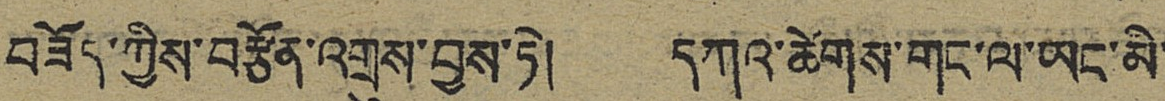བཟོད་ཀྱིས་བརྩོན་འགྲུས་བྱས་ཏེ། དཀའ་ཚེགས་གང་ལ་ཡང་མི་
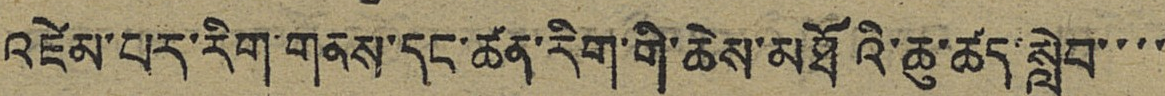འཛེམ་པར་རིག་གནས་དང་ཚན་རིག་གི་ཆེས་མཐོའི་ཆུ་ཚད་སླེབ་་་་
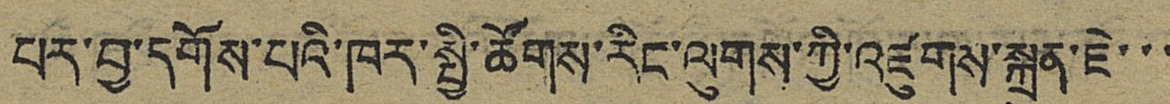པར་བྱ་དགོས་པའི་ཁར་སྤྱི་ཚོགས་རིང་ལུགས་ཀྱི་འཛུགས་སྐྲུན་ཇེ་་་
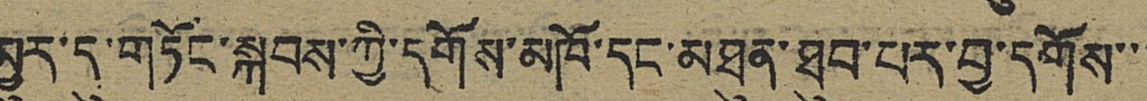མྱུར་དུ་གཏོང་སྐབས་ཀྱི་དགོས་མཁོ་དང་མཐུན་ཐུབ་པར་བྱ་དགོས་་་
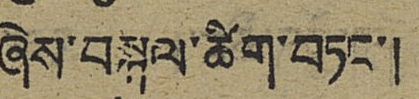ཞེས་བསྐུལ་ཚིག་བཏང་།
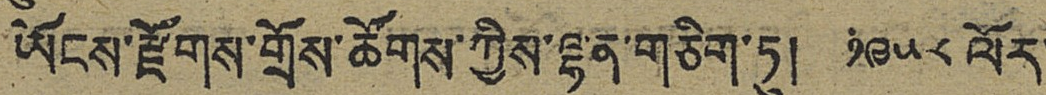ཡོངས་རྫོགས་གྲོས་ཚོགས་ཀྱིས་ལྷན་གཅིག་ཏུ། ༡༩༥༨ ལོར་
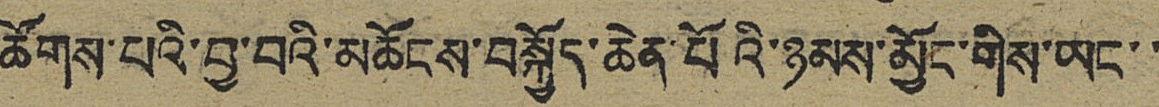ཚོགས་པའི་བྱ་བའི་མཆོངས་བསྐྱོད་ཆེན་པོའི་ཉམས་མྱོང་གིས་ཡང་་
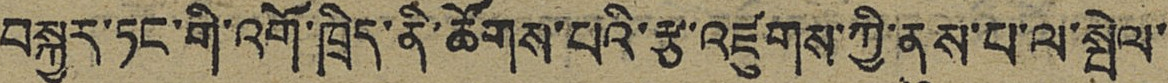བསྐྱར་ཏང་གི་འགོ་ཁྲིད་ནི་ཚོགས་པའི་རྩ་འཛུགས་ཀྱི་ནུས་པ་ལ་སྤེལ་
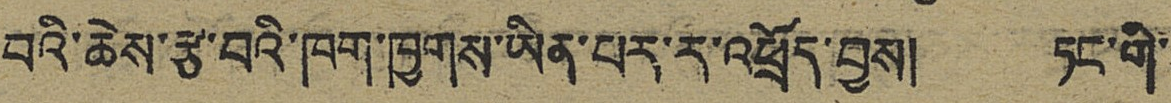བའི་ཆེས་རྩ་བའི་ཁག་ཁྱགས་ཡིན་པར་ར་འཕྲོད་བྱས། ཏང་གི་
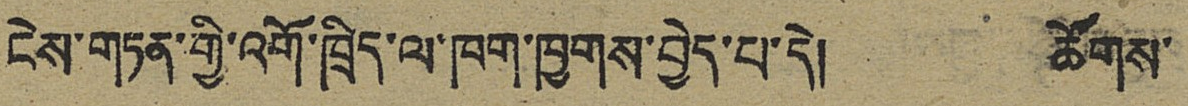ངེས་གཏན་གྱི་འགོ་ཁྲིད་ལ་ཁག་ཁྱགས་བྱེད་པ་དེ། ཚོགས་
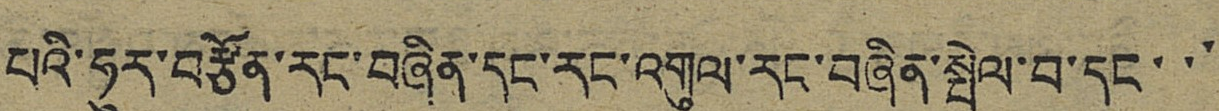པའི་ཧུར་བརྩོན་རང་བཞིན་དང་རང་འགུལ་རང་བཞིན་སྤེལ་བ་དང་་
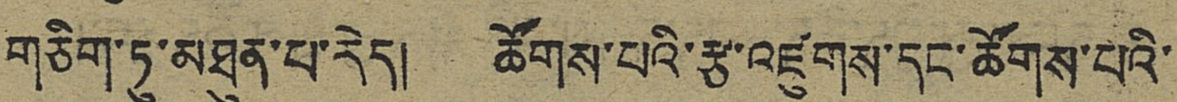གཅིག་ཏུ་མཐུན་པ་རེད། ཚོགས་པའི་རྩ་འཛུགས་དང་ཚོགས་པའི་
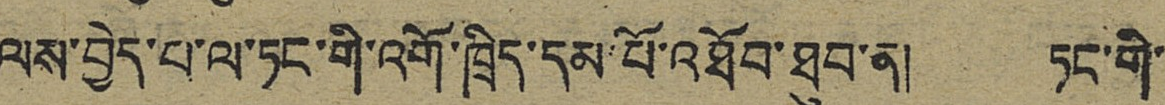ལས་བྱེད་པ་ལ་ཏང་གི་འགོ་ཁྲིད་དམ་པོ་འཐོབ་ཐུབ་ན། ཏང་གི་
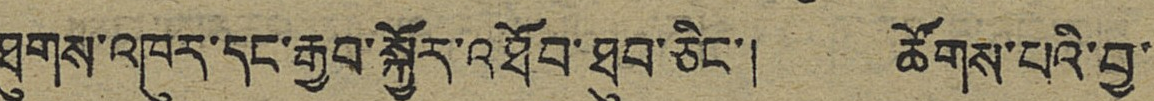ཐུགས་འཁུར་དང་རྒྱབ་སྐྱོར་འཐོབ་ཐུབ་ཅིང་། ཚོགས་པའི་བྱ་
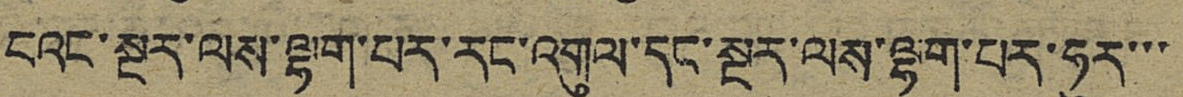ངའང་སྔར་ལས་ལྷག་པར་རང་འགུལ་དང་སྔར་ལས་ལྷག་པར་ཧུར་་་
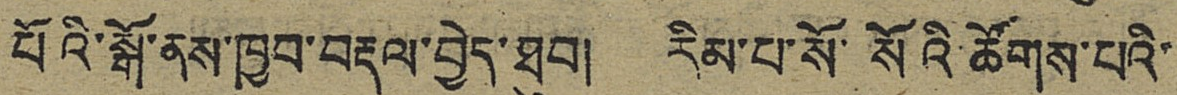པོའི་སྒོ་ནས་ཁྱབ་བརྡལ་བྱེད་ཐུབ། རིམ་པ་སོ་སོའི་ཚོགས་པའི་
